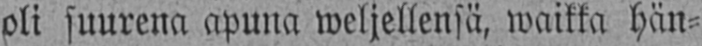oli suurena apuna weljellensä, waikka hän-
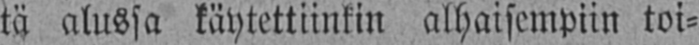tä alussa käytettiinkin alhaisempiin toi-
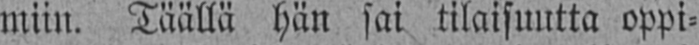miin. Täällä hän sai tilaisuutta oppi-
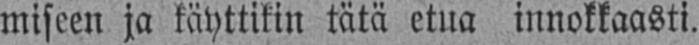miseen ja käyttikin tätä etua innokkaasti.
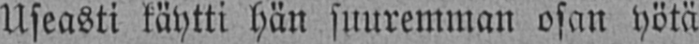Useasti käytti hän suuremman osan yötä
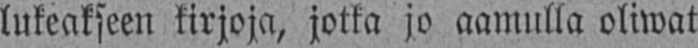lukeakseen kirjoja, jotka jo aamulla oliwat
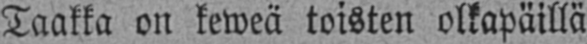Taakka on keweä toisten olkapäillä.
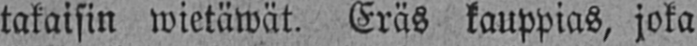takaisin wietäwät. Eräs kauppias, joka
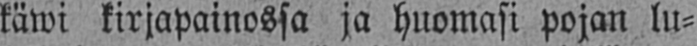käwi kirjapainossa ja huomasi pojan lu-
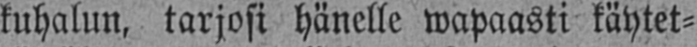kuhalun, tarjosi hänelle wapaasti käytet-
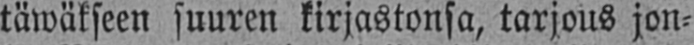täwäkseen suuren kirjastonsa, tarjous jon-
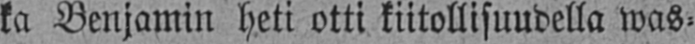ka Benjamin heti otti kiitollisuudella was-
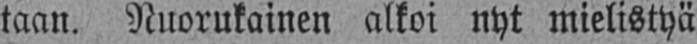taan. Nuorukainen alkoi nyt mielistyä
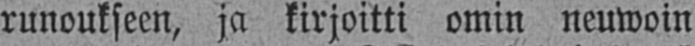runoukseen, ja kirjoitti omin neuwoin
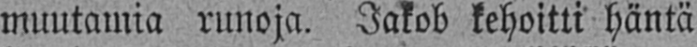muutamia runoja. Jakob kehoitti häntä
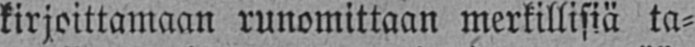kirjoittamaan runomittaan merkillisiä ta-
